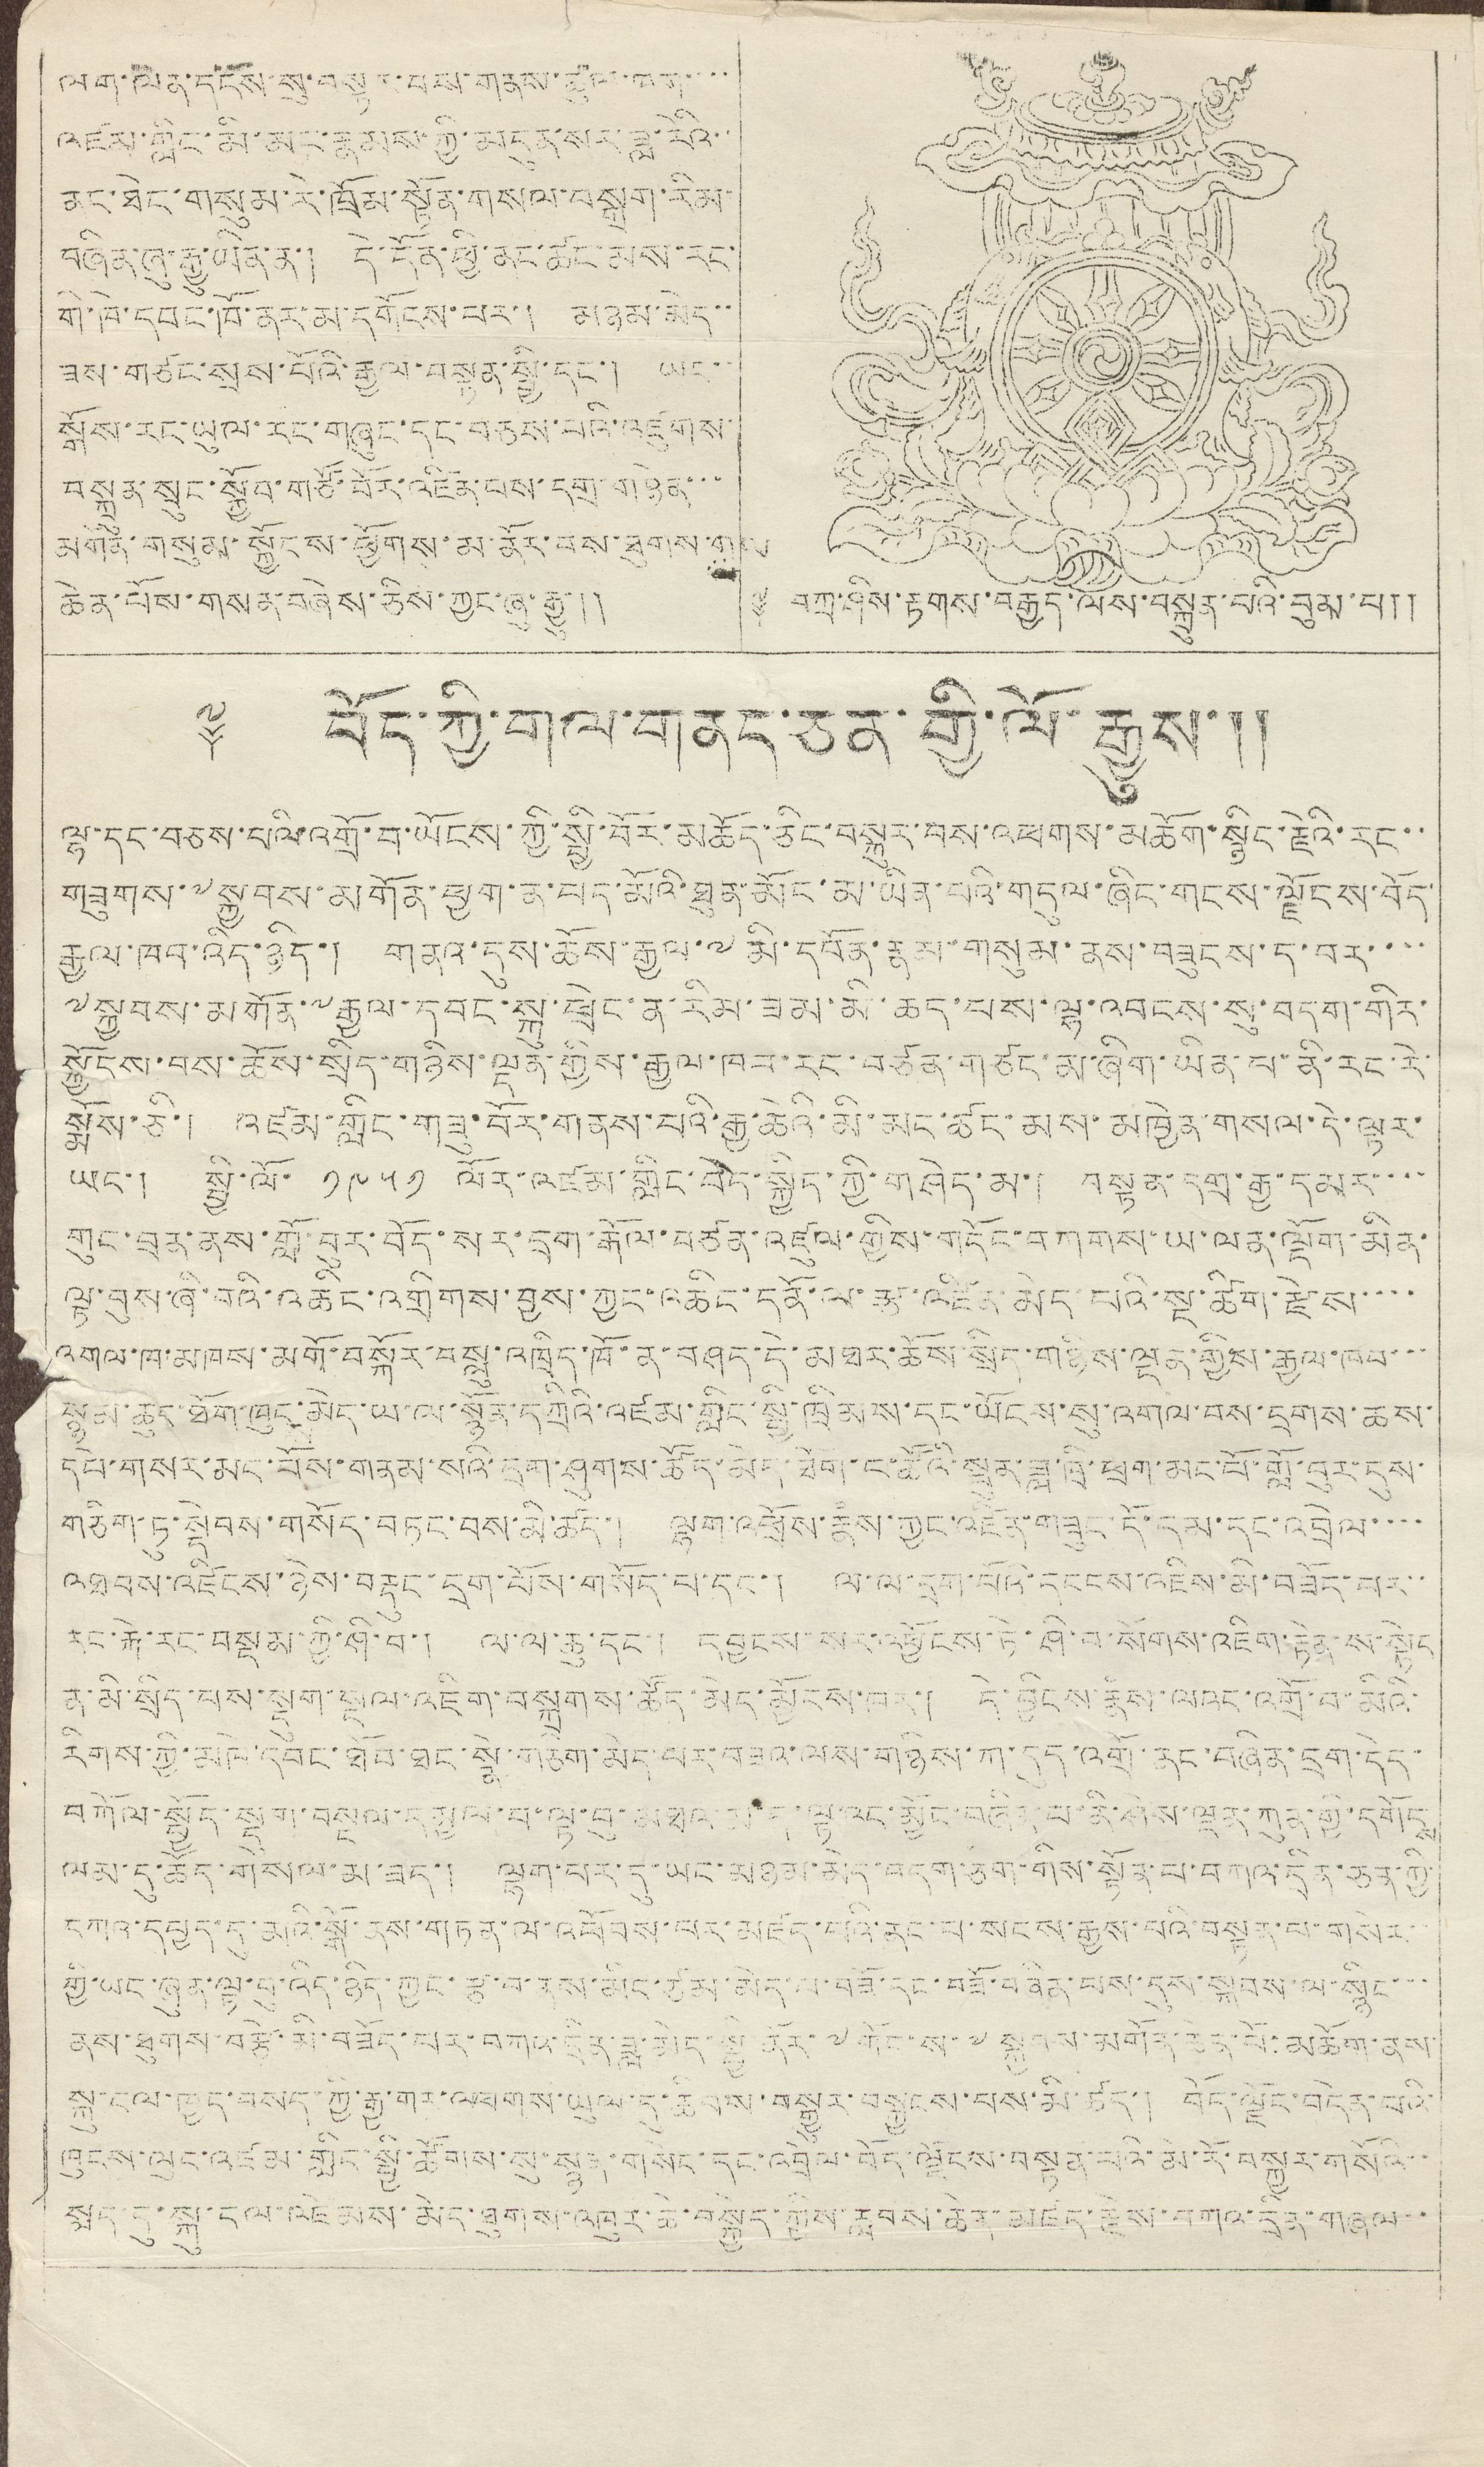ལག་ལེན་དངོས་སུ་བསྟར་བས་གནས་ཚུལ་ཁག་་་་
འཛམ་གླིང་མི་མང་རྣམས་ཀྱི་མདུན་སར་ཟླ་རེའི་་
ནང་ཐེང་གསུམ་རེ་ཁྲོམ་སྟོན་གསལ་བསྒྲག་རིམ་
བཞིན་ཞུ་རྒྱུ་ཡིན་ན་། དེ་དོན་ཕྱི་ནང་ཚང་མས་རང་
གི་ཁེ་དབང་ཁོ་ནར་དགོངས་པར་། མཉམ་མེད་་
ཟས་གཙང་སྲས་པོའི་རྒྱལ་བསྙན་སྤྱི་དང་། ཡང་་
སྒོས་རང་ཡུལ་རང་གཞུང་དང་བཅས་པའི་འཛུགས་
བསྐྲུན་སྲུང་སྐྱོབ་གཙོ་བོར་འཛིན་པས་དགྲ་གཉེར་་་
མགོན་གསུམ་སྐྱོངས་ཕྱོགས་མ་ནོར་བས་ཐུགས་གལ་
ཆེན་པོས་གསན་བཞེས་ཅིས་ཀྱང་ཞུ་རྒྱུ་༎
༈ བཀྲ་ཤིས་རྟགས་བརྒྱད་ལས་བསྐྲུན་པའི་བུམ་པ།།
༈ བོད་ཀྱི་གལ་གནད་ཅན་གྱི་ལོ་རྒྱུས་།།
ལྷ་དང་བཅས་པལི་འགྲོ་བ་ཡོངས་ཀྱི་སྤྱི་བོར་མཆོད་ཅིང་བསྐུར་བས་འཕགས་མཆོག་སྙིང་རྗེའི་རང་་
གཟུགས་༸སྐྱབས་མགོན་ཕྱག་ན་པད་མོའི་ཐུན་མོང་མ་ཡིན་པའི་གདུལ་ཞིང་གངས་ལྗོངས་བོད་
རྒྱལ་ཁབ་འདི་ཉིད་། གནའ་དུས་ཆོས་རྒྱལ་༸མི་དབོན་རྣམ་གསུམ་ནས་བཟུངས་ད་བར་་་་
༸སྐྱབས་མགོན་༸རྒྱལ་དབང་སྐུ་ཕྲེང་ན་རིམ་ཟམ་མི་ཆད་པས་ལྷ་འབངས་སུ་བདག་གིར་
སྐྱོངས་བས་ཆོས་སྲིད་གཉིས་ལྡན་གྱིས་རྒྱལ་ཁབ་རང་བཙན་གཙང་མ་ཞིག་ཡིན་པ་ནི་རང་རེ་
སྨོས་ཅི་། འཛམ་གླིང་གཟུ་བོར་གནས་པའི་རྒྱ་ཆེའི་མི་མང་ཚང་མས་མཁྱེན་གསལ་དེ་ལྟར་
ཡང་། སྤྱི་ལོ་ ༡༩༥༡ ལོར་འཛམ་གླིང་བདེ་སྐྱིད་ཀྱི་གཤེད་མ་། བསྟན་དགྲ་རྒྱ་དམར་་་་
གུང་བྲན་ནས་གློ་བུར་བོད་སར་དྲག་རྒོལ་བཙན་འཛུལ་གྱིས་གདོང་བགགས་ཡ་ལན་ལྡོག་མིན་
ལྟ་བུས་ཞི་བའི་འཆིང་འགྲིགས་བྱས་ཀྱང་འཆིང་དོན་ལ་རྩ་འཛིན་མེད་པའི་སྔ་ཚིག་རྗེས་་་་
འགལ་ཁ་མཁས་མགོ་བསྐོར་བསླུ་འཁྲིད་ཁོ་ན་བཤད་དེ་མཐར་ཆོས་སྲིད་གཉིས་ལྡན་གྱིས་རྒྱལ་ཁབ་་་
སྙམ་ཆུང་ཐོག་ཁུང་མེད་ལ་ལ་སྙོན་དཀྲིའི་འཛམ་གླིང་སྤྱི་ཁྲིམས་དང་ཡོངས་སུ་འགལ་བས་དྲགས་ཆས་
དཔེ་གསར་མང་པོས་གནམ་སའི་དྲག་ཤུགས་ཚོད་མེད་ཐོག་ང་ཚོའི་སྤུན་ཟླ་ཁྲི་ཕྲག་མང་པོ་གློ་བུར་དུས་
གཅིག་ཏུ་སྡེབས་གསོད་བཏང་བས་མི་ཚད་། ལྷག་འཕྲོས་རྣཾས་ཀྱང་འཛིན་གཟུང་དོ་དམ་དང་འབྲེལ་་་་
འཐབས་འཛིངས་ཉེས་བརྡུང་དྲག་པོས་གསོད་པ་དང་། ལ་ལ་དྲག་པོའི་དངངས་འཇིས་མི་བཟོད་པར་་
རང་རྐེ་རང་བསྡམ་ཀྱི་ཤི་བ་། ལ་ལ་ཆུ་དང་། དབྱངས་སར་འཕྱོངས་ཏེ་ཤི་བ་སོགས་འཇིག་རྟེན་ས་སྟེང
མ་མི་སྲིད་པས་སྡུག་སྔལ་འཇིག་བསྐྲགས་ཚོད་མེད་མྱོངས་བར་། དེ་བྱིངས་རྣཾས་ལའང་འགྲོ་བ་མིའི་
རིགས་ཀྱི་མཁེ་དབང་ཐོབ་ཐང་སྣེ་གཅིག་མེད་པར་བཟའ་ལས་གཉིས་ཀ་དུད་འགྲོ་ནང་བཞིན་དྲག་དེད་
བཀོལ་སྦྱོད་སྡུག་བསྔལ་དམྱལ་བ་ལྟ་བུ་མཐའ་མ་ད་ལྟའང་མྱོང་བཞིན་པ་ནི་ཤེས་ལྡན་ཀུན་གྱི་དགོངས
ལམ་དུ་ཚོད་གསེལ་མ་ཟད་། ལྷག་པར་དུ་ཡང་མཉམ་མེད་བདག་ཅག་གིས་སྟོན་པ་བཀའ་དྲིན་ཅན་གྱི
དཀའ་དབྱད་དུ་མའི་སྒོ་ནས་གཏན་ལ་འཕོབས་པར་མཛད་པའི་ནང་པ་སངས་རྒྱས་པའི་བསྟན་པ་གསེར་་
གྱི་ཡང་ཞུན་ལྟ་བུ་འདི་ཉིད་ཀྱང་རྩ་བ་ནས་མིང་ཙམ་མེད་པ་བཟོ་དང་བཟོ་བཞིན་པས་དུས་སྐབས་ལ་སྙིང་་་
ནས་ཐུགས་བརྩེ་མི་བཟོད་པར་བཀའ་དྲིན་ཟླ་མེད་སྤྱི་ནོར་༸གོང་ས་༸སྐྱབས་མགོན་ཆེན་པོ་མཆོག་ནས་
སྐུ་ངལ་ཁྱད་བསད་ཀྱི་རྒྱ་གར་འཕགས་ཡུལ་དུ་ཆིབས་བསྒྱུར་བསྐྱངས་པས་མི་ཚད་། བོད་ལྗོང་བདེན་པའི་
ཁུངས་ལུང་འཛམ་གླིང་སྤྱི་ཚོགས་སུ་སྙན་གསེར་དང་འབྲེལ་བོད་ལྗོངས་བསྟན་པའི་མེ་རོ་བསྐྱར་གསོའི་་
སླད་དུ་སྐུ་ངལ་འཛེམས་མེད་ཐུགས་འཁུར་ཆེ་བསྐྱེད་ཀྱིས་རླབས་ཆེན་མཛད་རྗེས་བཀའ་དྲིན་གཞལ་་
